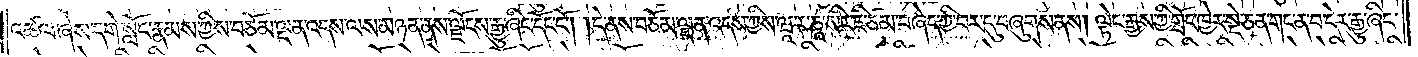འཚལ་ཞེས་དགེ་སློང་རྣམས་ཀྱིས་བཅོམ་ལྡན་འདས་ལས་མཉན་ནས་ལྗོངས་རྒྱུ་ཞིང་དོང་ངོ༌། །དེ་ནས་བཅོམ་ལྡན་འདས་ཀྱིས་ཝཱ་ར་ཎཱ་སིར་ཇི་ཙམ་བཞེད་ཀྱི་བར་དུ་བཞུགས་ནས། ལྟེང་རྒྱས་ཀྱི་གྲོང་ཁྱེར་སྡེ་ཅན་གང་ན་བ་དེར་རྒྱུ་ཞིང་
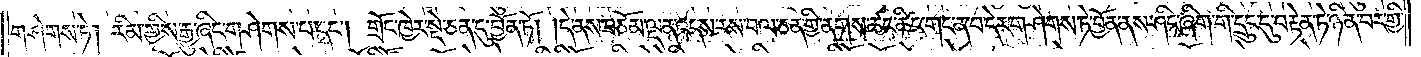གཤེགས་ཏེ། རིམ་གྱིས་རྒྱུ་ཞིང་གཤེགས་པ་དང༌། གྲོང་ཁྱེར་སྡེ་ཅན་དུ་བྱོན་ཏོ། །དེ་ནས་བཅོམ་ལྡན་འདས་རས་བལ་ཅན་གྱི་ནགས་ཚང་ཚིང་གང་ན་བ་དེར་གཤེགས་ཏེ་བྱོན་ནས་ཤིང་ཞིག་གི་དྲུང་དུ་བརྟེན་ཏེ་ཉིན་བར་གྱི་
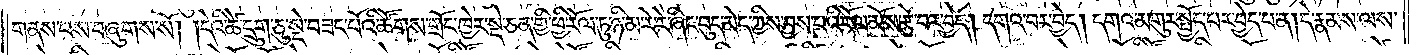གནས་པས་བཞུགས་སོ། །དེའི་ཚེ་དྲུག་ཅུ་སྡེ་བཟང་པོའི་ཚོགས་གྲོང་ཁྱེར་སྡེ་ཅན་གྱི་ཕྱི་རོལ་ཏུ་ཉི་མ་རེ་རེ་ཞིང་བུད་མེད་ཀྱིས་བྱས་པའི་རོལ་མོས་རྩེ་བར་བྱེད། དགའ་བར་བྱེད། དགའ་མགུར་སྤྱོད་པར་བྱེད་པ་ན། དེ་རྣམས་ལས་
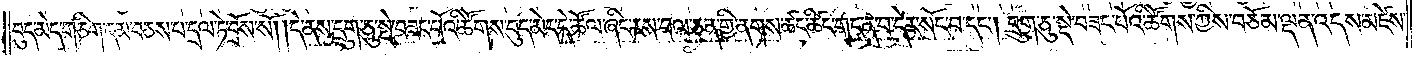བུད་མེད་གཅིག་དམ་བཅས་པ་དྲལ་ཏེ་བྲོས་སོ། །དེ་ནས་དྲུག་ཅུ་སྡེ་བཟང་པོའི་ཚོགས་བུད་མེད་དེ་ཚོལ་ཞིང་རས་བལ་ཅན་གྱི་ནགས་ཚང་ཚིང་གང་ན་བ་དེར་སོང་བ་དང༌། དྲུག་ཅུ་སྡེ་བཟང་པོའི་ཚོགས་ཀྱིས་བཅོམ་ལྡན་འདས་མཛེས་
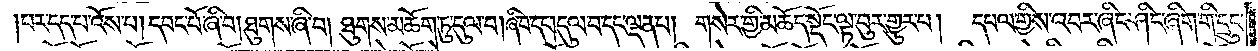།པར་དད་པ་འོས་པ། དབང་པོ་ཞི་བ། ཐུགས་ཞི་བ། ཐུགས་མཆོག་ཏུ་དུལ་བ། ཞི་བ་དང༌། དུལ་བ་དང་ལྡན་པ། གསེར་གྱི་མཆོད་སྡོང་ལྟ་བུར་གྱུར་བ། དཔལ་གྱིས་འབར་ཞིང་ཤིང་ཞིག་གི་དྲུང་
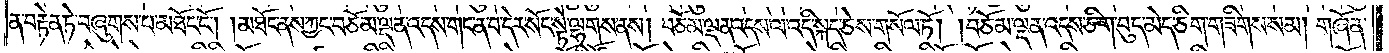ན་བརྟེན་ཏེ་བཞུགས་པ་མཐོང་ངོ༌། །མཐོང་ནས་ཀྱང་བཅོམ་ལྡན་འདས་གང་ན་བ་དེར་སོང་སྟེ་ལྷགས་ནས། བཅོམ་ལྡན་འདས་ལ་འདི་སྐད་ཅེས་གསོལ་ཏོ། །བཅོམ་ལྡན་འདས་ཅིག་བུད་མེད་ཅིག་གཟིགས་སམ། གཞོན་
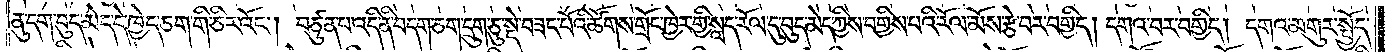ནུ་དག་བུད་མེད་དེ་ཁྱེད་ཅག་གི་ཅིར་འོང༌། བཙུན་པ་འདི་ནི་བདག་ཅག་དྲུག་ཅུ་སྡེ་བཟང་པོའི་ཚོགས་གྲོང་ཁྱེར་གྱི་སླད་རོལ་དུ་བུད་མེད་ཀྱིས་བགྱིས་པའི་རོལ་མོས་རྩེ་བར་བགྱིད། དགའ་བར་བགྱིད། དགའ་མགུར་སྤྱོད་
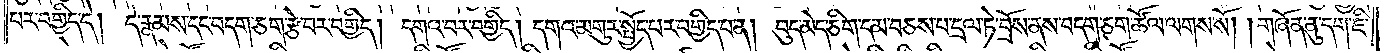པར་བགྱིད་དེ། དེ་རྣམས་དང་བདག་ཅག་རྩེ་བར་བགྱིད། དགའ་བར་བགྱིད། དགའ་མགུར་སྤྱོད་པར་བགྱིད་པ་ན། བུད་མེད་ཅིག་དམ་བཅས་པ་དྲལ་ཏེ་བྲོས་ནས་བདག་ཅག་ཚོལ་ལགས་སོ། །གཞོན་ནུ་དག་ཇི་
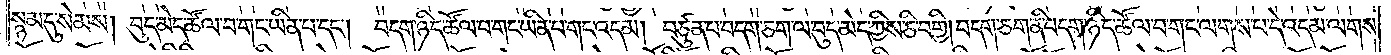སྙམ་དུ་སེམས། བུད་མེད་ཚོལ་བ་གང་ཡིན་པ་དང༌། བདག་ཉིད་ཚོལ་བ་གང་ཡིན་པ་གང་འདམ། བཙུན་པ་བདག་ཅག་ལ་བུད་མེད་ཀྱིས་ཅི་བགྱི། བདག་ཅག་ནི་བདག་ཉིད་ཚོལ་བ་གང་ལགས་པ་དེ་འདམ་ལགས་
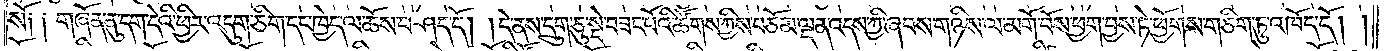སོ༑ ༑གཞོན་ནུ་དག་དེའི་ཕྱིར་འདུག་ཅིག་དང་ཁྱེད་ལ་ཆོས་བཤད་དོ། །དེ་ནས་དྲུག་ཅུ་སྡེ་བཟང་པོའི་ཚོགས་ཀྱིས་བཅོམ་ལྡན་འདས་ཀྱི་ཞབས་གཉིས་ལ་མགོ་བོས་ཕྱག་བྱས་ཏེ་ཕྱོགས་གཅིག་ཏུ་འཁོད་དོ། །
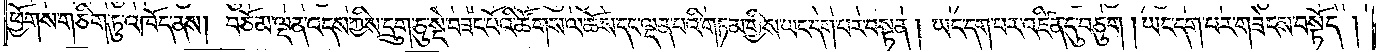ཕྱོགས་གཅིག་ཏུ་འཁོད་ནས། བཅོམ་ལྡན་འདས་ཀྱིས་དྲུག་ཅུ་སྡེ་བཟང་པོའི་ཚོགས་ལ་ཆོས་དང་ལྡན་པའི་གཏམ་གྱིས་ཡང་དག་པར་བསྟན། ཡང་དག་པར་འཛིན་དུ་བཅུག །ཡང་དག་པར་གཟེངས་བསྟོད།
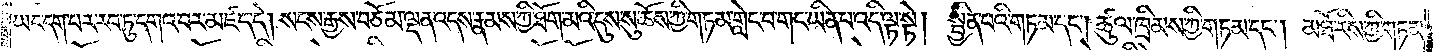ཡང་དག་པར་རབ་ཏུ་དགའ་བར་མཛད་དེ། སངས་རྒྱས་བཅོམ་ལྡན་འདས་རྣམས་ཀྱི་ཐོག་མའི་དུས་སུ་ཆོས་ཀྱི་གཏམ་གླེང་བ་གང་ཡིན་པ་འདི་ལྟ་སྟེ། སྦྱིན་པའི་གཏམ་དང༌། ཚུལ་ཁྲིམས་ཀྱི་གཏམ་དང༌། མཐོ་རིས་ཀྱི་གཏམ་
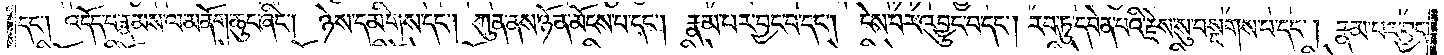དང༌། འདོད་པ་རྣམས་ལ་མནོག་ཆུང་ཞིང༌། ཉེས་དམིགས་དང༌། ཀུན་ནས་ཉོན་མོངས་པ་དང༌། རྣམ་པར་བྱང་བ་དང༌། ངེས་པར་འབྱུང་བ་དང༌། རབ་ཏུ་དབེན་པའི་རྗེས་སུ་བསྔགས་པ་དང༌། རྣམ་པར་བྱང་
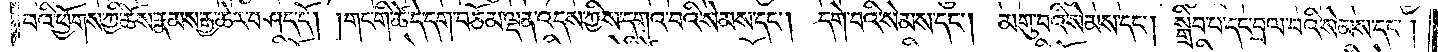བའི་ཕྱོགས་ཀྱི་ཆོས་རྣམས་རྒྱ་ཆེར་བཤད་དོ། །གང་གི་ཚེ་དེ་དག་བཅོམ་ལྡན་འདས་ཀྱིས་དགའ་བའི་སེམས་དང༌། དགེ་བའི་སེམས་དང༌། མགུ་བའི་སེམས་དང༌། སྒྲིབ་པ་དང་བྲལ་བའི་སེམས་དང༌།
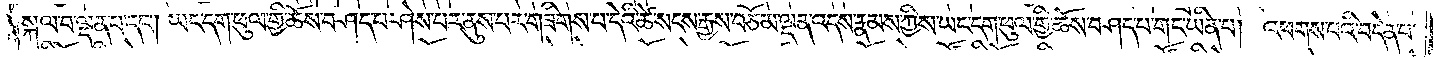སྐལ་བ་ལྡན་པ་དང༌། ཡང་དག་ཕུལ་གྱི་ཆོས་བཤད་པ་ཤེས་པར་ནུས་པར་གཟིགས་པ་དེའི་ཚེ་སངས་རྒྱས་བཅོམ་ལྡན་འདས་རྣམས་ཀྱིས་ཡང་དག་ཕུལ་གྱི་ཆོས་བཤད་པ་གང་ཡིན་པ། འཕགས་པའི་བདེན་པ་
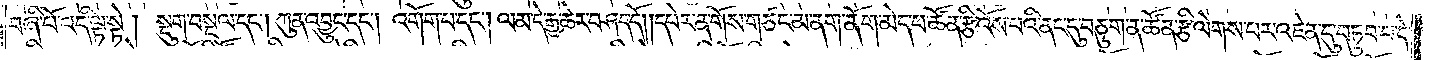བཞི་པོ་འདི་ལྟ་སྟེ། སྡུག་བསྔལ་དང༌། ཀུན་འབྱུང་དང༌། འགོག་པ་དང༌། ལམ་དེ་རྒྱ་ཆེར་བཤད་དོ། །དཔེར་ན་གོས་གཙང་མ་ནག་ནོག་མེད་པ་ཚོན་རྩི་འོས་པའི་ནང་དུ་བཅུག་ན་ཚོན་རྩི་ལེགས་པར་འཇེན་དུ་བཏུབ་པ་དེ་
